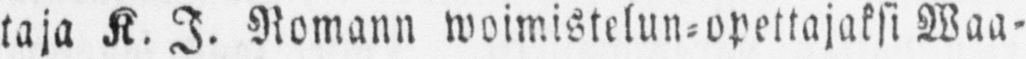taja K. J. Romann woimistelun-opettajaksi Waa-
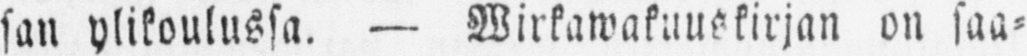san ylikoulussa. — Wirkawakuuskirjan on saa-
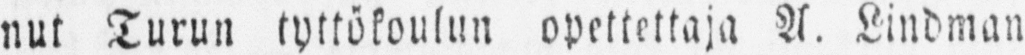nut Turun tyttökoulun opettettaja A. Lindman
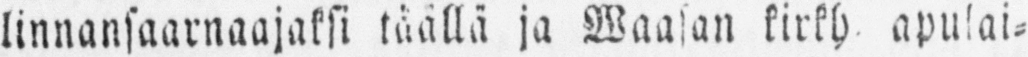linnansaarnaajaksi täällä ja Waasan kirkh. apulai-
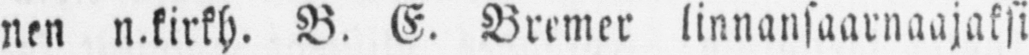nen n.kirkh. B. E. Bremer linnansaarnaajaksi
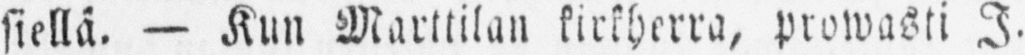siellä. — Kun Marttilan kirkherra, prowasti I.
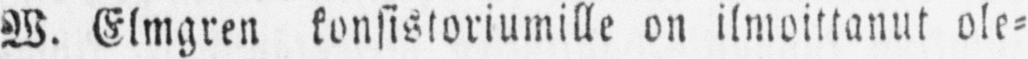W. Elmgren konsistoriumille on ilmoittanut ole-
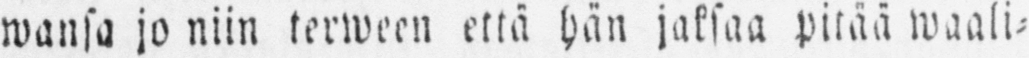wansa jo niin terween että hän jaksaa pitää waali-
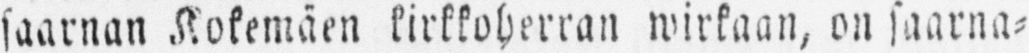saarnan Kokemäen kirkkoherran wirkaan, on saarna-
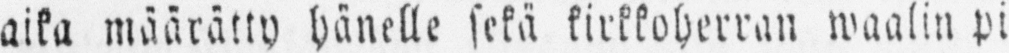aika määrätty hänelle sekä kirkkoherran waalin pi-
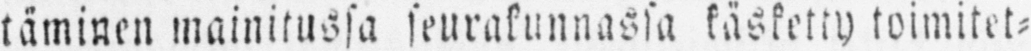täminen mainitussa seurakunnassa käsketty toimitet-
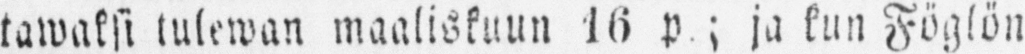tawaksi tulewan maaliskuun 16 p.; ja kun Föglön
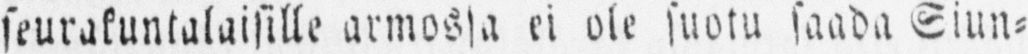seurakuntalaisille armossa ei ole suotu saada Siun-
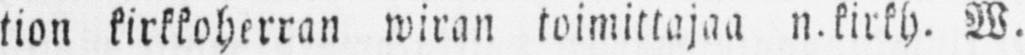tion kirkkoherran wiran toimittajaa n.kirkh. W.
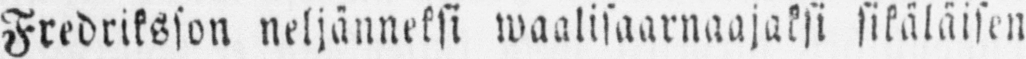Fredriksson neljänneksi waalisaarnaajaksi sikäläisen
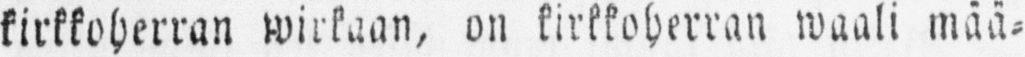kirkkoherran wirkaan, on kirkkoherran waali mää-
